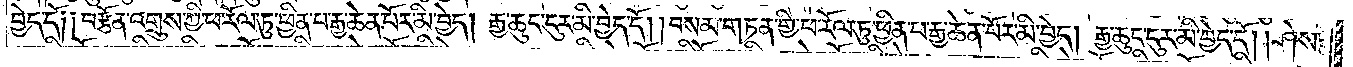བྱེད་དོ༑ ༑བརྩོན་འགྲུས་ཀྱི་ཕ་རོལ་ཏུ་ཕྱིན་པ་རྒྱ་ཆེན་པོར་མི་བྱེད། རྒྱ་ཆུང་ངུར་མི་བྱེད་དོ། །བསམ་གཏན་གྱི་ཕ་རོལ་ཏུ་ཕྱིན་པ་རྒྱ་ཆེན་པོར་མི་བྱེད། རྒྱ་ཆུང་ངུར་མི་བྱེད་དོ། །ཤེས་
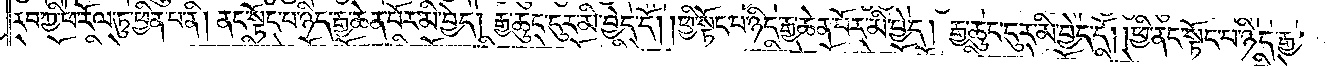རབ་ཀྱི་ཕ་རོལ་ཏུ་ཕྱིན་པ་ནི། ནང་སྟོང་པ་ཉིད་རྒྱ་ཆེན་པོར་མི་བྱེད། རྒྱ་ཆུང་ངུར་མི་བྱེད་དོ། །ཕྱི་སྟོང་པ་ཉིད་རྒྱ་ཆེན་པོར་མི་བྱེད། རྒྱ་ཆུང་ངུར་མི་བྱེད་དོ། །ཕྱི་ནང་སྟོང་པ་ཉིད་རྒྱ་
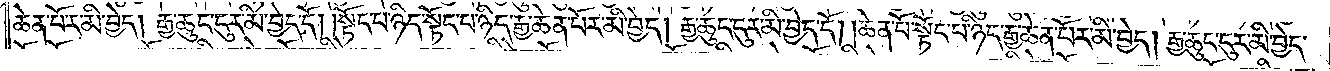ཆེན་པོར་མི་བྱེད། རྒྱ་ཆུང་ངུར་མི་བྱེད་དོ། །སྟོང་པ་ཉིད་སྟོང་པ་ཉིད་རྒྱ་ཆེན་པོར་མི་བྱེད། རྒྱ་ཆུང་ངུར་མི་བྱེད་དོ། །ཆེན་པོ་སྟོང་པ་ཉིད་རྒྱ་ཆེན་པོར་མི་བྱེད། རྒྱ་ཆུང་ངུར་མི་བྱེད་
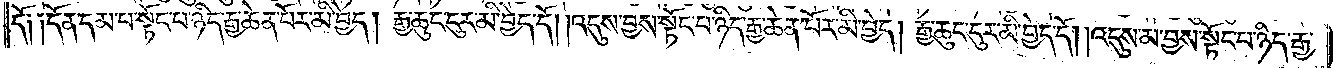དོ༑ ༑དོན་དམ་པ་སྟོང་པ་ཉིད་རྒྱ་ཆེན་པོར་མི་བྱེད། རྒྱ་ཆུང་ངུར་མི་བྱེད་དོ། །འདུས་བྱས་སྟོང་པ་ཉིད་རྒྱ་ཆེན་པོར་མི་བྱེད། རྒྱ་ཆུང་ངུར་མི་བྱེད་དོ། །འདུས་མ་བྱས་སྟོང་པ་ཉིད་རྒྱ་
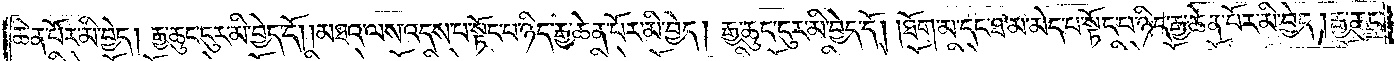ཆེན་པོར་མི་བྱེད། རྒྱ་ཆུང་ངུར་མི་བྱེད་དོ། །མཐའ་ལས་འདས་པ་སྟོང་པ་ཉིད་རྒྱ་ཆེན་པོར་མི་བྱེད། རྒྱ་ཆུང་ངུར་མི་བྱེད་དོ། །ཐོག་མ་དང་ཐ་མ་མེད་པ་སྟོང་པ་ཉིད་རྒྱ་ཆེན་པོར་མི་བྱེད། རྒྱ་ཆུང་
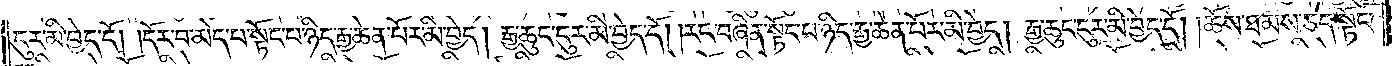ངུར་མི་བྱེད་དོ། །དོར་བ་མེད་པ་སྟོང་པ་ཉིད་རྒྱ་ཆེན་པོར་མི་བྱེད། རྒྱ་ཆུང་ངུར་མི་བྱེད་དོ། །རང་བཞིན་སྟོང་པ་ཉིད་རྒྱ་ཆེན་པོར་མི་བྱེད། རྒྱ་ཆུང་ངུར་མི་བྱེད་དོ། །ཆོས་ཐམས་ཅད་སྟོང་
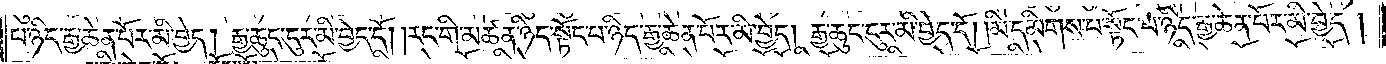པ་ཉིད་རྒྱ་ཆེན་པོར་མི་བྱེད། རྒྱ་ཆུང་ངུར་མི་བྱེད་དོ། །རང་གི་མཚན་ཉིད་སྟོང་པ་ཉིད་རྒྱ་ཆེན་པོར་མི་བྱེད། རྒྱ་ཆུང་ངུར་མི་བྱེད་དོ། །མི་དམིགས་པ་སྟོང་པ་ཉིད་རྒྱ་ཆེན་པོར་མི་བྱེད།
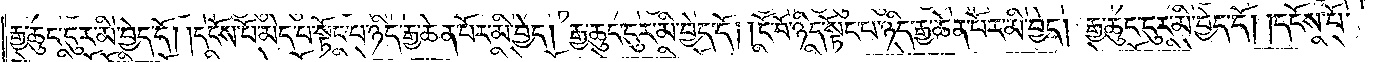རྒྱ་ཆུང་ངུར་མི་བྱེད་དོ། །དངོས་པོ་མེད་པ་སྟོང་པ་ཉིད་རྒྱ་ཆེན་པོར་མི་བྱེད། རྒྱ་ཆུང་ངུར་མི་བྱེད་དོ། །ངོ་བོ་ཉིད་སྟོང་པ་ཉིད་རྒྱ་ཆེན་པོར་མི་བྱེད། རྒྱ་ཆུང་ངུར་མི་བྱེད་དོ། །དངོས་པོ་
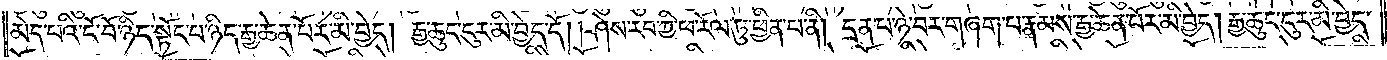མེད་པའི་ངོ་བོ་ཉིད་སྟོང་པ་ཉིད་རྒྱ་ཆེན་པོར་མི་བྱེད། རྒྱ་ཆུང་ངུར་མི་བྱེད་དོ། །ཤེས་རབ་ཀྱི་ཕ་རོལ་ཏུ་ཕྱིན་པ་ནི། དྲན་པ་ཉེ་བར་གཞག་པ་རྣམས་རྒྱ་ཆེན་པོར་མི་བྱེད། རྒྱ་ཆུང་ངུར་མི་བྱེད་
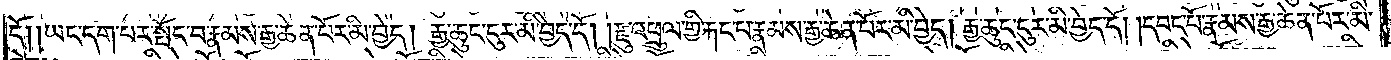དོ། །ཡང་དག་པར་སྤོང་བ་རྣམས་རྒྱ་ཆེན་པོར་མི་བྱེད། རྒྱ་ཆུང་ངུར་མི་བྱེད་དོ། །རྫུ་འཕྲུལ་གྱི་རྐང་པ་རྣམས་རྒྱ་ཆེན་པོར་མི་བྱེད། རྒྱ་ཆུང་ངུར་མི་བྱེད་དོ། །དབང་པོ་རྣམས་རྒྱ་ཆེན་པོར་མི་
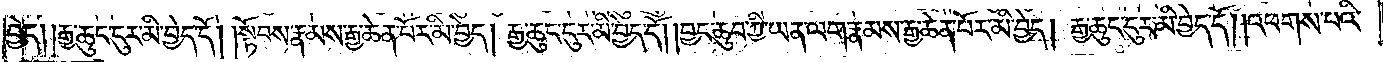བྱེད། །རྒྱ་ཆུང་ངུར་མི་བྱེད་དོ། །སྟོབས་རྣམས་རྒྱ་ཆེན་པོར་མི་བྱེད། རྒྱ་ཆུང་ངུར་མི་བྱེད་དོ། །བྱང་ཆུབ་ཀྱི་ཡན་ལག་རྣམས་རྒྱ་ཆེན་པོར་མི་བྱེད། རྒྱ་ཆུང་ངུར་མི་བྱེད་དོ། །འཕགས་པའི་
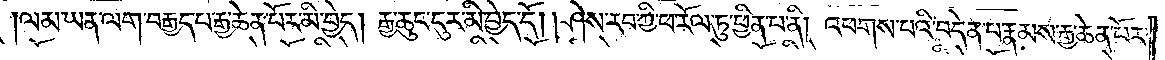ལམ་ཡན་ལག་བརྒྱད་པ་རྒྱ་ཆེན་པོར་མི་བྱེད། རྒྱ་ཆུང་ངུར་མི་བྱེད་དོ། །ཤེས་རབ་ཀྱི་ཕ་རོལ་ཏུ་ཕྱིན་པ་ནི། འཕགས་པའི་བདེན་པ་རྣམས་རྒྱ་ཆེན་པོར་
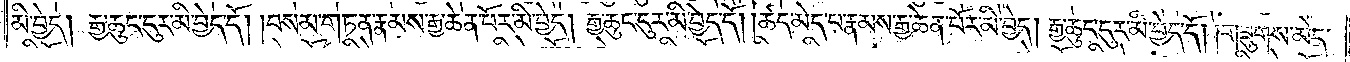མི་བྱེད། རྒྱ་ཆུང་ངུར་མི་བྱེད་དོ། །བསམ་གཏན་རྣམས་རྒྱ་ཆེན་པོར་མི་བྱེད། རྒྱ་ཆུང་ངུར་མི་བྱེད་དོ། །ཚད་མེད་པ་རྣམས་རྒྱ་ཆེན་པོར་མི་བྱེད། རྒྱ་ཆུང་ངུར་མི་བྱེད་དོ། །གཟུགས་མེད་
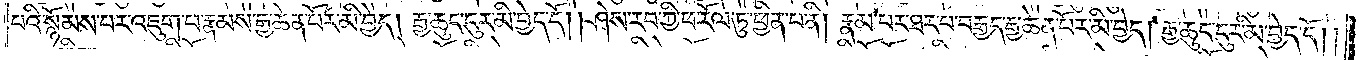པའི་སྙོམས་པར་འཇུག་པ་རྣམས་རྒྱ་ཆེན་པོར་མི་བྱེད། རྒྱ་ཆུང་ངུར་མི་བྱེད་དོ། །ཤེས་རབ་ཀྱི་ཕ་རོལ་ཏུ་ཕྱིན་པ་ནི། རྣམ་པར་ཐར་པ་བརྒྱད་རྒྱ་ཆེན་པོར་མི་བྱེད། རྒྱ་ཆུང་ངུར་མི་བྱེད་དོ། །
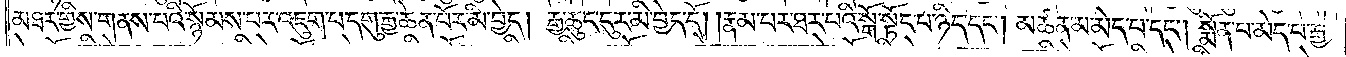མཐར་གྱིས་གནས་པའི་སྙོམས་པར་འཇུག་པ་དགུ་རྒྱ་ཆེན་པོར་མི་བྱེད། རྒྱ་ཆུང་ངུར་མི་བྱེད་དོ། །རྣམ་པར་ཐར་པའི་སྒོ་སྟོང་པ་ཉིད་དང༌། མཚན་མ་མེད་པ་དང༌། སྨོན་པ་མེད་པ་རྒྱ་
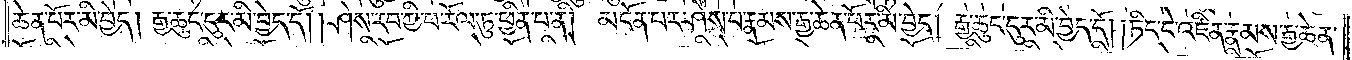ཆེན་པོར་མི་བྱེད། རྒྱ་ཆུང་ངུར་མི་བྱེད་དོ། །ཤེས་རབ་ཀྱི་ཕ་རོལ་ཏུ་ཕྱིན་པ་ནི། མངོན་པར་ཤེས་པ་རྣམས་རྒྱ་ཆེན་པོར་མི་བྱེད། རྒྱ་ཆུང་ངུར་མི་བྱེད་དོ། །ཏིང་ངེ་འཛིན་རྣམས་རྒྱ་ཆེན་
